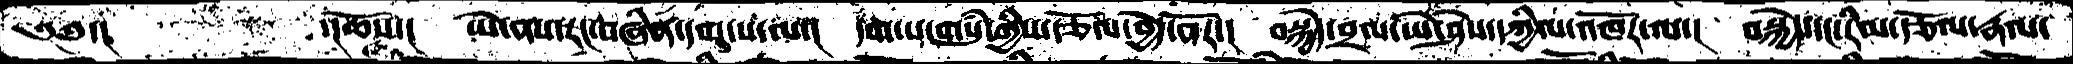༄༅་།       ་།ཆོས་།  ཡེ་ནས་རང་བཞིན་དག་པ་ལ་།  དག་པ་གསུཾ་གྱིས་རྩོལ་བྱེད་ནོར་།  བསྐྱེད་བྲལ་ཡེ་ཤེས་དཀྱིལ་འཁོར་ལ་།  བསྐྱེད་དང་རིམ་རྩོལ་རྣལ་
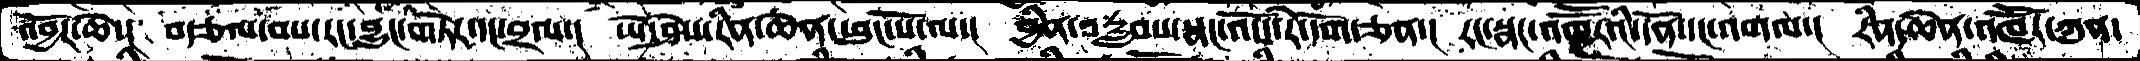འབྱོར་ཆེ་།  བརྩལ་བས་རང་བྱུང་གཏེར་དང་བྲལ་།  ཡེ་ཤེས་རིན་ཆེན་ཕུང་པོ་ལ་།  བྱིན་བརླབས་སྣང་འོས་རེ་དོག་ཅན།  རང་སྣང་འཁོོཽརའི་དོན་དང་འགལ་།  རིན་ཆེན་འཁཽར་ཀུན་
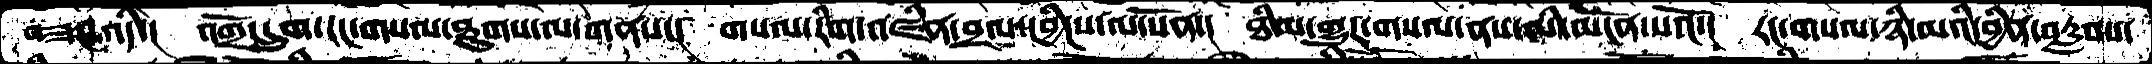བཟང་འདི་།  འགྲོ་དྲུག་ངང་གསལ་ཐུགས་ལ་གནས་།  གསལ་རིག་འཛིན་བྲལ་དབྱིངས་ལ་སོན་།  ཐིམ་གྱུར་གསལ་ནས་མི་མངོན་པའོ་།  རང་གསལ་ཉི་མའི་བྱིན་བརླབས་
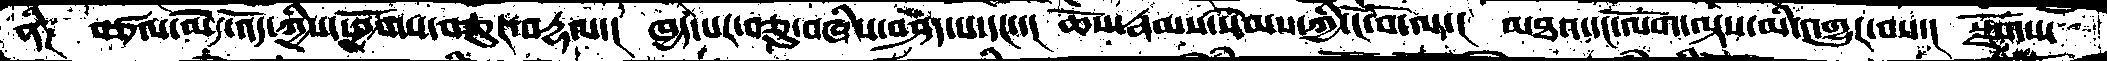ནི༑  བཙལ་མེད་འོད་ཀྱིས་ཕྱོགས་བཅུར་བརྡལ་།  ཁྱད་པར་བཅུ་བཞིས་བཤད་པ་དང་་།  ཆོས་རྣམས་སེམས་ཀྱི་ངོ་བོ་ལ་།  མཐའ་དང་ལོག་ལྟས་མི་འགྱུར་བས་།  སྫོགས་
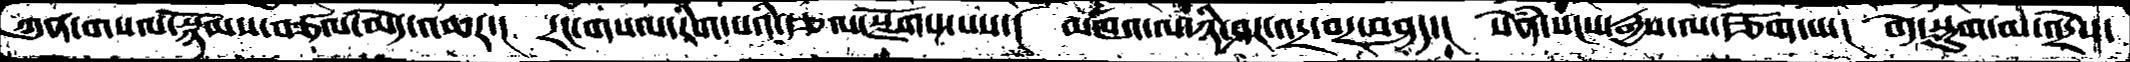ཀུན་གསལ་སྙོམས་བཙལ་མེད་འཆར་།  རང་གསལ་རིག་པའི་རྩལ་སྫོགས་པས་།  མཁའ་ལ་ཉི་ཤར་འདྲ་བར་བཤད་།  སེཾན་སངས་རྒྱས་ལ་རྩོག་པ་།  བདེ་སྡུག་མི་འདྲེས་
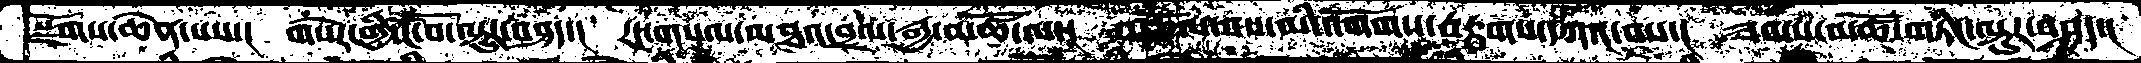སྫོགས་ཆེན་པས་།  གསེར་གྱི་ངོ་བོ་ལྟུར་བཤད་།  རང་གསལ་མཐའ་བྲལ་རྒྱལ་མཚོ་ལ་།  བདཅོལ་བས་མི་འགོགས་བརྟགས་དཀའ་བས་།  ཟབ་ས་མཚོ་གཏིང་ལྟུར་བཤད་།
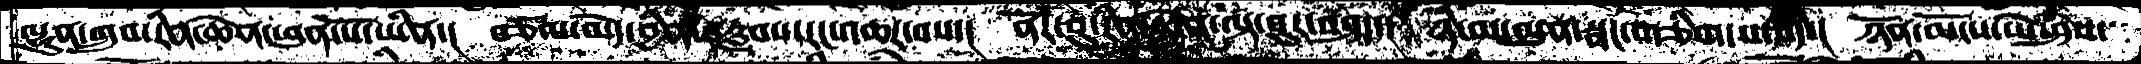ལྷུན་གྲུབ་རིན་ཆེན་ཕུན་པོ་ཡིན་།  བཅོལ་མེད་དབྱིན་རླབས་རང་འཆར་བས་།  ནོར་བུ་རིན་ཆེན་ལྟ་བུར་བཤད་།  ཉི་མ་མུན་སྣང་གཅིག་པ་འདི་།  ཉོན་མོངས་ཡེ་ཤེས་
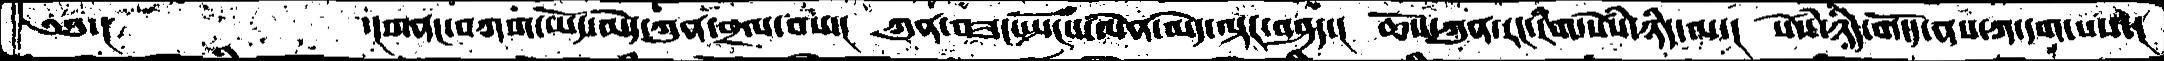༄༅་།        ་།གནང་བཀག་ཡོད་མེད་ཀུན་བྲལ་བས་།  ཀུན་བཟང་སྤོངས་ལེན་མེད་ལྟར་བཤད་།  ཆོས་ཀུན་རང་རིག་སེཾས་ཉིད་ལ་།  སེཾས་ཉིད་གདོད་ནས་ཀ་དག་པས་།
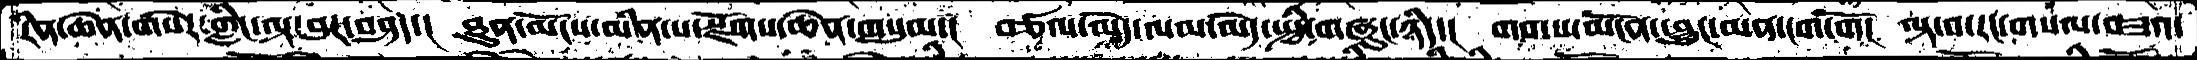རིན་ཆེན་གསེར་གླིང་ལྟ་བུར་བཤད་།  ཐུན་མོངས་མིན་པ་སྫོགས་ཆེན་གསུམ་།  བཙལ་མེད་ལམ་མེད་སྤྱི་གཞུང་ཉིད་།  གབ་པ་མངོན་བྱུང་མན་ངག་གོ།  ལྟ་བ་རང་གསལ་བཟའ་
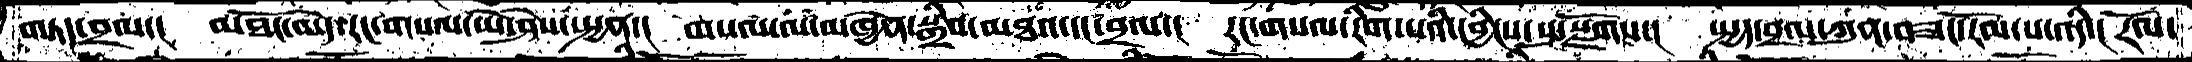གཏད་བྲལ་།  མཐོང་མེད་རང་གསལ་ཡེ་ཤེས་སྤྱན་།  གསལ་ལ་མཁྱེན་སྒྲིབ་མཐའ་དང་བྲལ་།  རང་གསལ་རིག་པའི་དབྱིངས་སུ་སྫོགས་།   སྤྱད་བྲལ་ཀུན་བཟང་རོལ་པ་འདི་།  རོལ་
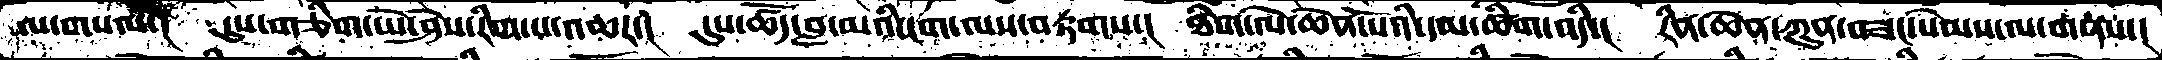ལ་གསལ་།  དུས་གཅིག་ཡེ་ཤེས་རིག་པ་འཆར་།  དུས་ཚོད་བླ་མའི་ངག་ལས་བརྟགས་།  ཐིག་ལེ་ཆེན་པོའི་དམ་ཚིག་འདི་།  རིན་ཆེན་ཀུན་བཟང་སེམས་ལ་གནས་།
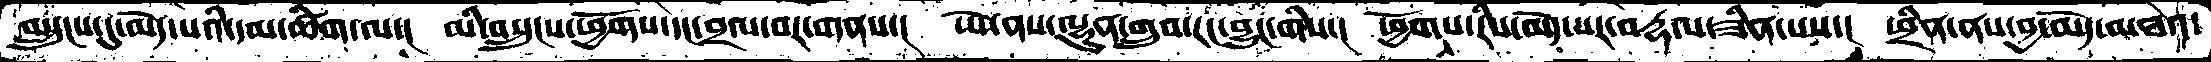བསྲུངས་དུ་མེད་པའི་དམ་ཚིག་ལ་།  མི་བསྲུངས་ཕྱོགས་དང་བྲལ་བར་གནས་།   ཡེ་ནས་ལྷུན་གྲུབ་རང་བྱུང་གིས་།  ཕྱོགས་རིས་མེད་པར་བརྡལ་ཟིན་པས་།  ཕྲིན་ནས་བྱ་མེད་མཐའ་
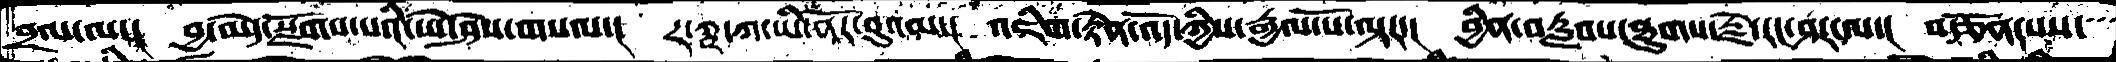བྲལ་ལ་།  བྱ་མེད་སྫོགས་པའི་ཡེ་ཤེས་གསལ་།  ར་ཀྵ་ཀ་ཡི་ནོར་བུའམ་།  འཇིག་རྟེན་འོད་ཀྱིས་རྒྱལ་པོ་ལྟར་།  བྱིན་བརླབས་ཐུགས་རྗེ་རང་ཤར་ལ་།  བརྩོན་པས་
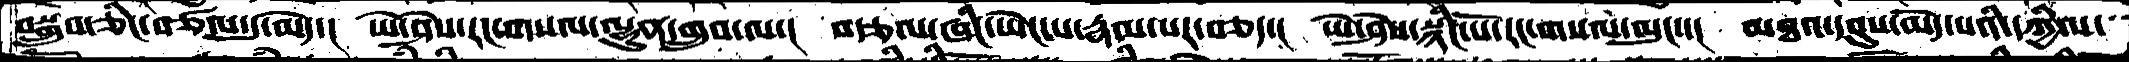བསྒྲུབ་ཅིང་བཙལ་དུ་མེད་།  ཡེ་ཤེས་རང་གསལ་ལྷུན་གྲུབ་ལ་།  བརྩལ་ཞིང་ཡེང་པ་རྣམ་པར་བཅད་།  ཡེ་ཤེས་སྙིང་པོ་རང་གསལ་ལུང་་།  མཐའ་དབུས་མེད་པའི་དཀྱིལ་
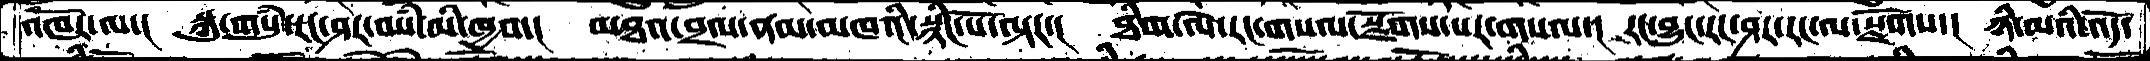འཁོར་ལ་།  སྐུ་གསུཾ་རང་ཤར་བསཾ་མི་ཁྱབ་།  མཐའ་བྲལ་ནམ་མཁའི་སྙིང་པོ་ལྟར་།  ཐིག་ལེ་རང་གསལ་སྫོགས་པར་གསལ་།  རང་བྱུང་རང་ཤར་རང་ལ་སྫོགས་།  ཉི་མའི་འོད་
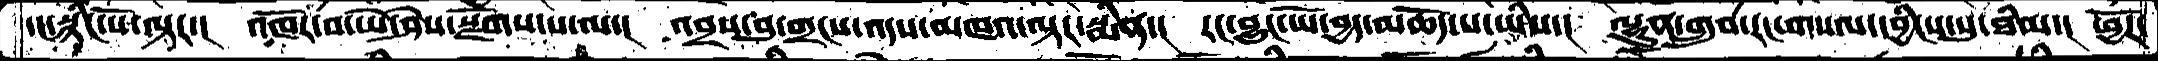དང་སྙིང་པོ་ལྟར་།  འཁོར་བ་ཡེ་ཤེས་སྫོགས་པ་ལ་།  འབྲས་བུ་གྲངས་འདས་མཁའ་ལྟར་སྨིན་།    རང་བྱུང་ཡོ་བྱད་མཆོད་པ་ཡིས་།  ལྷུན་གྲུབ་རང་གསལ་དབྱིངས་སུ་ཐིམ་།  ཕྱོཌ་
